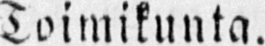Toimikunta.
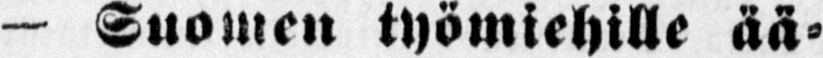— Suomen työmiehille ää-
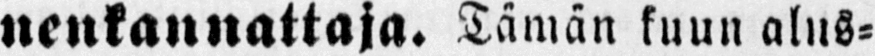nenkannattaja. Tämän kuun alus-
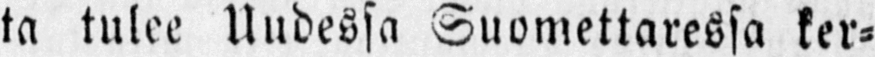ta tulee Uudessa Suvmettaressa ker-
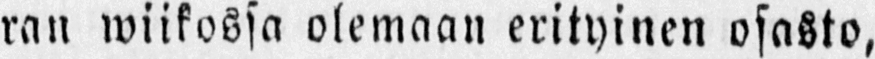ran wiikossa olemaan erityinen osasto,
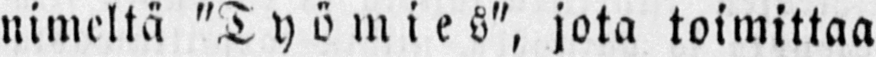nimeltä "Työmies", jota toimittaa
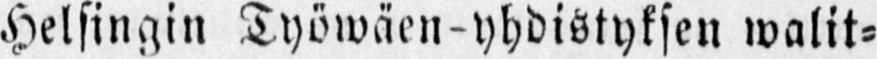Helsingin Työwäen-yhdistykseu walit-
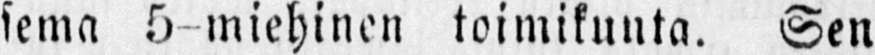sema 5 miehinen toimikunta. Sen
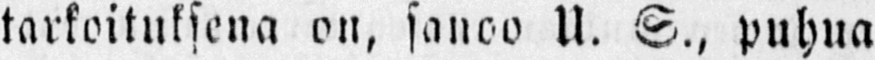tarkoituksena on, sanoo U. S., puhua
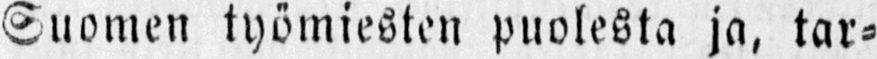Suomen työmiesten puolesta ja, tar-
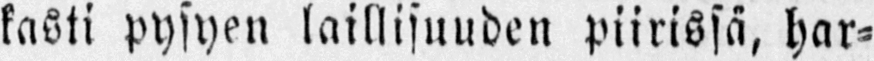kasti pysyen laillisuuden piirissä, har-
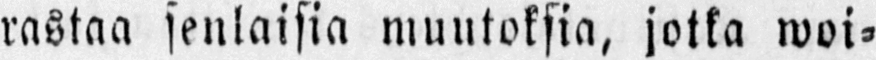rastaa senlaisia muutoksia, jotka woi-
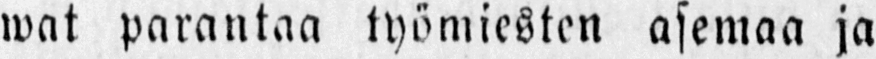wat parantaa työmiesten asemaa ja
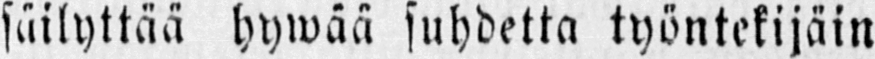säilyttää hywää suhdetta työntekijäin
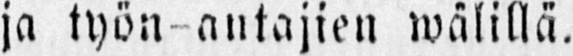ja työn antajien wälillä.
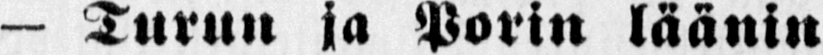— Turun ja Porin läänin
